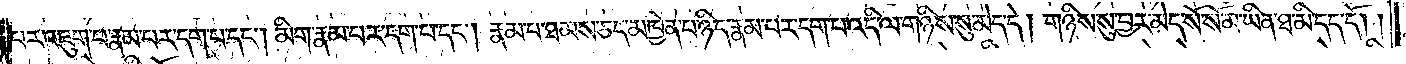པར་འཇུག་པ་རྣམ་པར་དག་པ་དང༌། མིག་རྣམ་པར་དག་པ་དང༌། རྣམ་པ་ཐམས་ཅད་མཁྱེན་པ་ཉིད་རྣམ་པར་དག་པ་འདི་ལ་གཉིས་སུ་མེད་དེ། གཉིས་སུ་བྱར་མེད་སོ་སོ་མ་ཡིན་ཐ་མི་དད་དོ། །
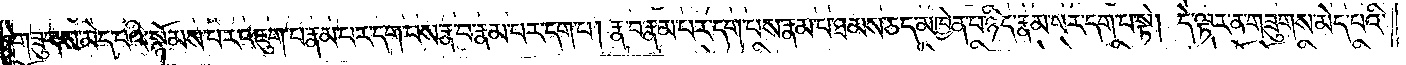གཟུགས་མེད་པའི་སྙོམས་པར་འཇུག་པ་རྣམ་པར་དག་པས་རྣ་བ་རྣམ་པར་དག་པ། རྣ་བ་རྣམ་པར་དག་པས་རྣམ་པ་ཐམས་ཅད་མཁྱེན་པ་ཉིད་རྣམ་པར་དག་པ་སྟེ། དེ་ལྟར་ན་གཟུགས་མེད་པའི་
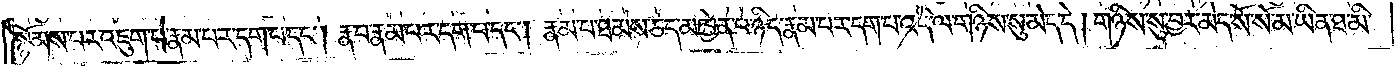སྙོམས་པར་འཇུག་པ་རྣམ་པར་དག་པ་དང༌། རྣ་བ་རྣམ་པར་དག་པ་དང༌། རྣམ་པ་ཐམས་ཅད་མཁྱེན་པ་ཉིད་རྣམ་པར་དག་པ་འདི་ལ་གཉིས་སུ་མེད་དེ། གཉིས་སུ་བྱར་མེད་སོ་སོ་མ་ཡིན་ཐ་མི་
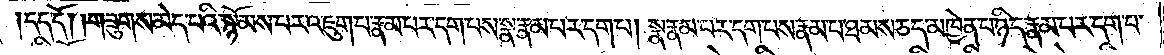དད་དོ། །གཟུགས་མེད་པའི་སྙོམས་པར་འཇུག་པ་རྣམ་པར་དག་པས་སྣ་རྣམ་པར་དག་པ། སྣ་རྣམ་པར་དག་པས་རྣམ་པ་ཐམས་ཅད་མཁྱེན་པ་ཉིད་རྣམ་པར་དག་པ་
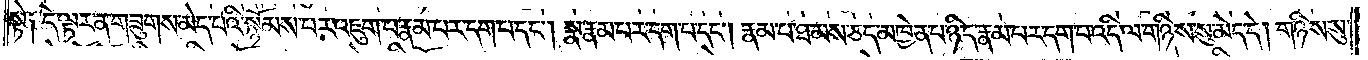སྟེ༑ དེ་ལྟར་ན་གཟུགས་མེད་པའི་སྙོམས་པར་འཇུག་པ་རྣམ་པར་དག་པ་དང༌། སྣ་རྣམ་པར་དག་པ་དང༌། རྣམ་པ་ཐམས་ཅད་མཁྱེན་པ་ཉིད་རྣམ་པར་དག་པ་འདི་ལ་གཉིས་སུ་མེད་དེ། གཉིས་སུ་
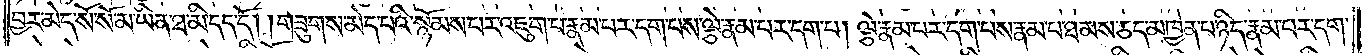བྱར་མེད་སོ་སོ་མ་ཡིན་ཐ་མི་དད་དོ། །གཟུགས་མེད་པའི་སྙོམས་པར་འཇུག་པ་རྣམ་པར་དག་པས་ལྕེ་རྣམ་པར་དག་པ། ལྕེ་རྣམ་པར་དག་པས་རྣམ་པ་ཐམས་ཅད་མཁྱེན་པ་ཉིད་རྣམ་པར་དག་
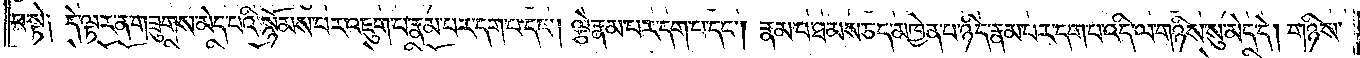པ་སྟེ༑ དེ་ལྟར་ན་གཟུགས་མེད་པའི་སྙོམས་པར་འཇུག་པ་རྣམ་པར་དག་པ་དང༌། ལྕེ་རྣམ་པར་དག་པ་དང༌། རྣམ་པ་ཐམས་ཅད་མཁྱེན་པ་ཉིད་རྣམ་པར་དག་པ་འདི་ལ་གཉིས་སུ་མེད་དེ། གཉིས་
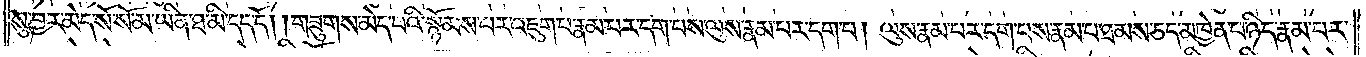སུ་བྱར་མེད་སོ་སོ་མ་ཡིན་ཐ་མི་དད་དོ། །གཟུགས་མེད་པའི་སྙོམས་པར་འཇུག་པ་རྣམ་པར་དག་པས་ལུས་རྣམ་པར་དག་པ། ལུས་རྣམ་པར་དག་པས་རྣམ་པ་ཐམས་ཅད་མཁྱེན་པ་ཉིད་རྣམ་པར་
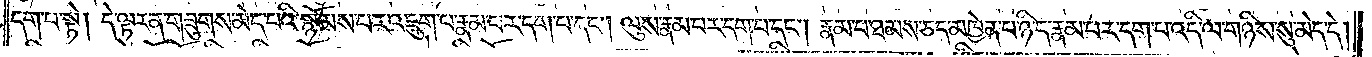དག་པ་སྟེ། དེ་ལྟར་ན་གཟུགས་མེད་པའི་སྙོམས་པར་འཇུག་པ་རྣམ་པར་དག་པ་དང༌། ལུས་རྣམ་པར་དག་པ་དང༌། རྣམ་པ་ཐམས་ཅད་མཁྱེན་པ་ཉིད་རྣམ་པར་དག་པ་འདི་ལ་གཉིས་སུ་མེད་དེ།
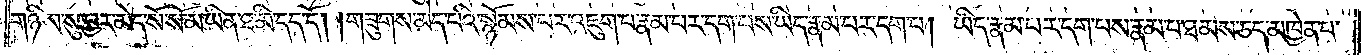གཉིས་སུ་བྱར་མེད་སོ་སོ་མ་ཡིན་ཐ་མི་དད་དོ། །གཟུགས་མེད་པའི་སྙོམས་པར་འཇུག་པ་རྣམ་པར་དག་པས་ཡིད་རྣམ་པར་དག་པ། ཡིད་རྣམ་པར་དག་པས་རྣམ་པ་ཐམས་ཅད་མཁྱེན་པ་
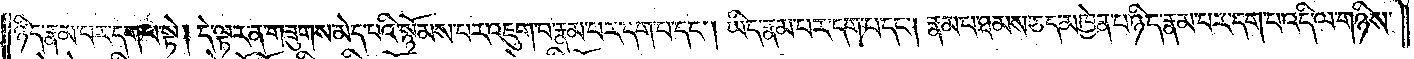ཉིད་རྣམ་པར་དག་པ་སྟེ། དེ་ལྟར་ན་གཟུགས་མེད་པའི་སྙོམས་པར་འཇུག་པ་རྣམ་པར་དག་པ་དང༌། ཡིད་རྣམ་པར་དག་པ་དང༌། རྣམ་པ་ཐམས་ཅད་མཁྱེན་པ་ཉིད་རྣམ་པར་དག་པ་འདི་ལ་གཉིས་
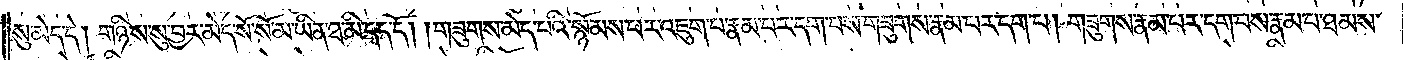སུ་མེད་དེ། གཉིས་སུ་བྱར་མེད་སོ་སོ་མ་ཡིན་ཐ་མི་དད་དོ། །གཟུགས་མེད་པའི་སྙོམས་པར་འཇུག་པ་རྣམ་པར་དག་པས་གཟུགས་རྣམ་པར་དག་པ། གཟུགས་རྣམ་པར་དག་པས་རྣམ་པ་ཐམས་
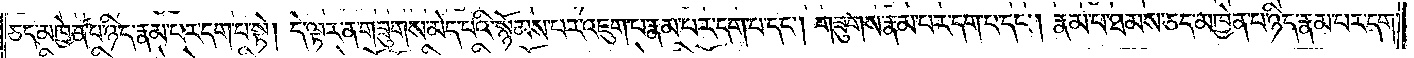ཅད་མཁྱེན་པ་ཉིད་རྣམ་པར་དག་པ་སྟེ། དེ་ལྟར་ན་གཟུགས་མེད་པའི་སྙོམས་པར་འཇུག་པ་རྣམ་པར་དག་པ་དང༌། གཟུགས་རྣམ་པར་དག་པ་དང༌། རྣམ་པ་ཐམས་ཅད་མཁྱེན་པ་ཉིད་རྣམ་པར་དག་
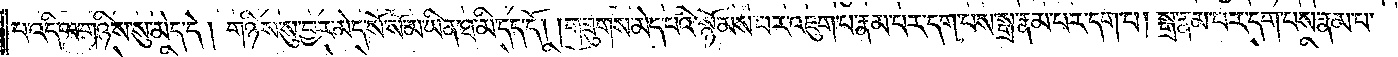པ་འདི་ལ་གཉིས་སུ་མེད་དེ། གཉིས་སུ་བྱར་མེད་སོ་སོ་མ་ཡིན་ཐ་མི་དད་དོ། །གཟུགས་མེད་པའི་སྙོམས་པར་འཇུག་པ་རྣམ་པར་དག་པས་སྒྲ་རྣམ་པར་དག་པ། སྒྲ་རྣམ་པར་དག་པས་རྣམ་པ་
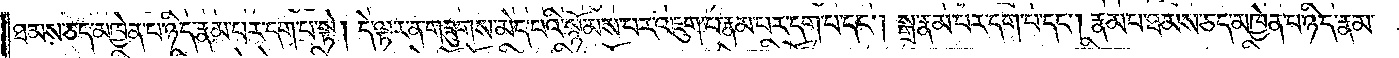ཐམས་ཅད་མཁྱེན་པ་ཉིད་རྣམ་པར་དག་པ་སྟེ། དེ་ལྟར་ན་གཟུགས་མེད་པའི་སྙོམས་པར་འཇུག་པ་རྣམ་པར་དག་པ་དང༌། སྒྲ་རྣམ་པར་དག་པ་དང༌། རྣམ་པ་ཐམས་ཅད་མཁྱེན་པ་ཉིད་རྣམ་
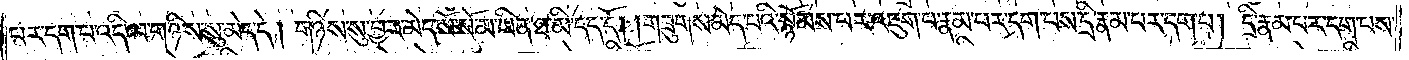པར་དག་པ་འདི་ལ་གཉིས་སུ་མེད་དེ། གཉིས་སུ་བྱར་མེད་སོ་སོ་མ་ཡིན་ཐ་མི་དད་དོ། །གཟུགས་མེད་པའི་སྙོམས་པར་འཇུག་པ་རྣམ་པར་དག་པས་དྲི་རྣམ་པར་དག་པ། དྲི་རྣམ་པར་དག་པས་
